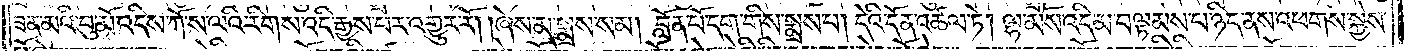ཟན་མའི་བུ་མོ་འདིས་ཀོ་ས་ལའི་རིགས་འདི་རྒྱས་པར་འགྱུར་རོ། །ཞེས་མ་སྨྲས་སམ། བློན་པོ་དག་གིས་སྨྲས་པ། དེའི་དོན་འཚལ་ཏེ། ལྷ་མོས་འདི་མ་བལྟམས་པ་ཉིད་ནས་འཕགས་སྐྱེས་
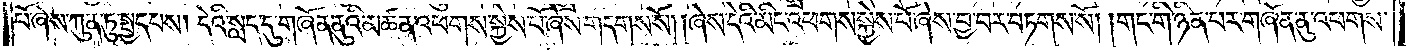པོ་ཞེས་ཀུན་ཏུ་སྤྱད་པས། དེའི་སླད་དུ་གཞོན་ནུའི་མཚན་འཕགས་སྐྱེས་པོ་ཞེས་གདགས་སོ། །ཞེས་དེའི་མིང་འཕགས་སྐྱེས་པོ་ཞེས་བྱ་བར་བཏགས་སོ། །གང་གི་ཉིན་པར་གཞོན་ནུ་འཕགས་
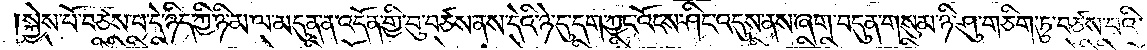སྐྱེས་པོ་བཙས་པ་དེ་ཉིད་ཀྱི་ཉི་མ་ལ་མདུན་ན་འདོན་གྱི་བུ་བཙས་ནས་དེའི་ཉེ་དུ་དག་ཀྱང་འོངས་ཤིང་འདུས་ནས་ཞག་བདུན་གསུམ་ཉི་ཤུ་གཅིག་ཏུ་བཙས་པའི་
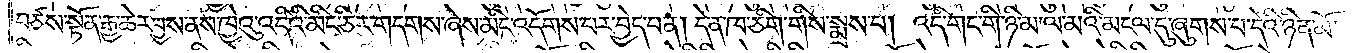བཙས་སྟོན་རྒྱ་ཆེར་བྱས་ནས་ཁྱེའུ་འདིའི་མིང་ཅིར་གདགས་ཞེས་མིང་འདོགས་པར་བྱེད་པ་ན། དེ་ན་ཁ་ཅིག་གིས་སྨྲས་པ། འདི་གང་གི་ཉི་མ་ལ་མའི་མངལ་དུ་ཞུགས་པ་དེའི་ཉིན་མོ་
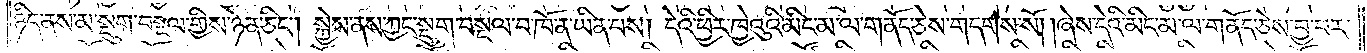ཉིད་ནས་མ་སྡུག་བསྔལ་གྱིས་ཉེན་ཅིང༌། སྐྱེས་ནས་ཀྱང་སྡུག་བསྔལ་བ་ཁོ་ན་ཡིན་པས། དེའི་ཕྱིར་ཁྱེའུའི་མིང་མ་ལ་གནོད་ཅེས་གདགས་སོ། །ཞེས་དེའི་མིང་མ་ལ་གནོད་ཅེས་བྱ་བར་
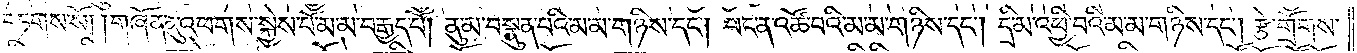བཏགས་སོ། །གཞོན་ནུ་འཕགས་སྐྱེས་པོ་མ་མ་བརྒྱད་པོ། ནུ་མ་བསྣུན་པའི་མ་མ་གཉིས་དང༌། པང་ན་འཚོ་བའི་མ་མ་གཉིས་དང༌། དྲི་མ་འཕྱི་བའི་མ་མ་གཉིས་དང༌། རྩེ་གྲོགས་
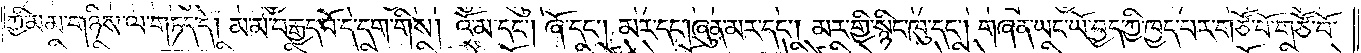ཀྱི་མ་མ་གཉིས་ལ་གཏད་དེ། མ་མ་བརྒྱད་པོ་དེ་དག་གིས། འོ་མ་དང༌། ཞོ་དང༌། མར་དང༌། ཞུན་མར་དང༌། མར་གྱི་སྙིང་ཁུ་དང༌། གཞན་ཡང་ཡོ་བྱད་ཀྱི་ཁྱད་པར་གཙོ་བོ་གཙོ་བོ་
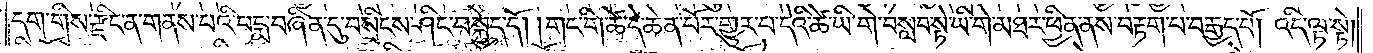དག་གིས་རྫིང་ན་གནས་པའི་པདྨ་བཞིན་དུ་བསྲིངས་ཤིང་བསྐྱེད་དོ། །གང་གི་ཚེ་དེ་ཆེན་པོར་གྱུར་པ་དེའི་ཚེ་ཡི་གེ་བསླབ་སྟེ་ཡི་གེ་མཐར་ཕྱིན་ནས་བརྟག་པ་བརྒྱད་པོ། འདི་ལྟ་སྟེ།
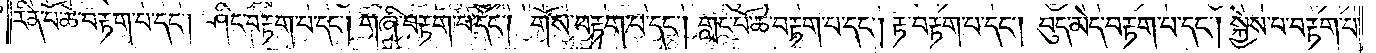རིན་པོ་ཆེ་བརྟག་པ་དང༌། ཤིང་བརྟག་པ་དང༌། གཞི་བརྟག་པ་དང༌། གོས་བརྟག་པ་དང༌། གླང་པོ་ཆེ་བརྟག་པ་དང༌། རྟ་བརྟག་པ་དང༌། བུད་མེད་བརྟག་པ་དང༌། སྐྱེས་པ་བརྟག་པ་
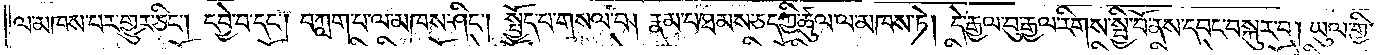ལ་མཁས་བར་གྱུར་ཅིང༌། དབྱེ་བ་དང༌། བཀླག་པ་ལ་མཁས་ཤིང༌། སྤྱོད་པ་གསལ་བ། རྣམ་པ་ཐམས་ཅད་ཀྱི་ཚུལ་ལ་མཁས་ཏེ། དེ་རྒྱལ་བུ་རྒྱལ་རིགས་སྤྱི་བོ་ནས་དབང་བསྐུར་བ། ཡུལ་གྱི་
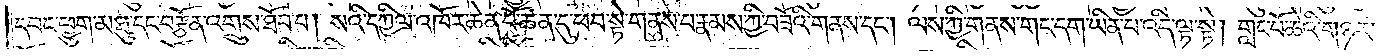དབང་ཕྱུག་མཐུ་དང་བརྩོན་འགྲུས་ཐོབ་པ། སའི་དཀྱིལ་འཁོར་ཆེན་པོ་ཚན་དུ་ཕབ་སྟེ་གནས་པ་རྣམས་ཀྱི་བཟོའི་གནས་དང༌། ལས་ཀྱི་གནས་གང་དག་ཡིན་པ་འདི་ལྟ་སྟེ། གླང་པོ་ཆེའི་གཉར་
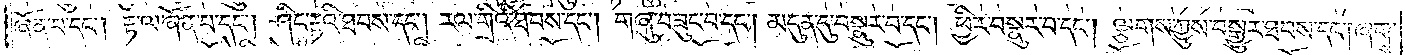ཞོན་པ་དང༌། རྟ་ལ་ཞོན་པ་དང༌། ཤིང་རྟའི་ཐབས་དང༌། རལ་གྲིའི་ཐབས་དང༌། གཞུ་བཟུང་བ་དང༌། མདུན་དུ་བསྣུར་བ་དང༌། ཕྱིར་བསྣུར་བ་དང༌། ལྕགས་ཀྱུས་བསྒྱུར་ཐབས་དང༌། ཞགས་
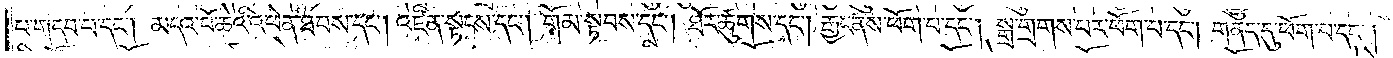པ་གདབ་པ་དང༌། མདའ་བོ་ཆེའི་འཕེན་ཐབས་དང༌། འཛིན་སྟངས་དང༌། གོམ་སྟབས་དང༌། ཐོར་ཚུགས་དང༌། རྒྱང་ནས་ཕོག་པ་དང༌། སྒྲ་གྲགས་པར་ཕོག་པ་དང༌། གནད་དུ་ཕོག་པ་དང༌།
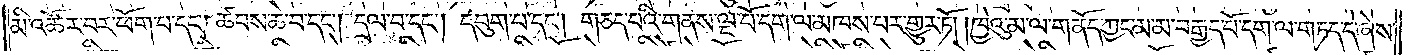མི་འཚོར་བར་ཕོག་པ་དང༌། ཚབས་ཆེ་བ་དང༌། དྲལ་བ་དང༌། དབུག་པ་དང༌། གཅད་པའི་གནས་ལྔ་པོ་དག་ལ་མཁས་པར་གྱུར་ཏོ། །ཁྱེའུ་མ་ལ་གནོད་ཀྱང་མ་མ་བརྒྱད་པོ་དག་ལ་གཏད་དེ་ཞེས་
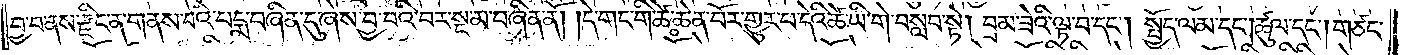བྱ་བ་ནས་རྫིང་ན་གནས་པའི་པདྨ་བཞིན་དུ་ཞེས་བྱ་བའི་བར་སྔ་མ་བཞིན་ནོ། །དེ་གང་གི་ཚེ་ཆེན་པོར་གྱུར་པ་དེའི་ཚེ་ཡི་གེ་བསླབ་སྟེ། བྲམ་ཟེའི་ལྟ་བ་དང༌། སྤྱོད་ལམ་དང༌། ཚུལ་དང༌། གཙང་
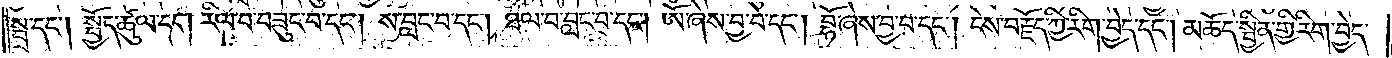སྦྲ་དང༌། སྤྱོད་ཚུལ་དང༌། རིལ་བ་བཟུང་བ་དང༌། ས་བླང་བ་དང༌། ཐལ་བ་བླང་བ་དང༌། ཨོཾ་ཞེས་བྱ་བ་དང༌། བྷོ་ཞེས་བྱ་བ་དང༌། ངེས་བརྗོད་ཀྱི་རིག་བྱེད་དང༌། མཆོད་སྦྱིན་གྱི་རིག་བྱེད་
